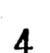4
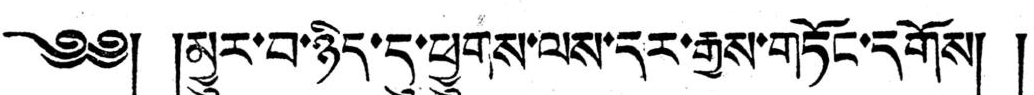༄༅། །མྱུར་བ་ཉིད་དུ་ཕྱུགས་ལས་དར་རྒྱས་གཏོང་དགོས། །
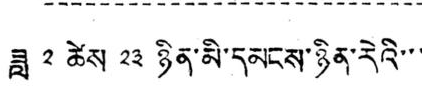ཟླ ༢ ཚེས ༢༣ ཉིན་མི་དམངས་ཉིན་རེའི་་་
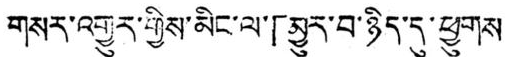གསར་འགྱུར་གྱིས་མིང་ལ་「མྱུར་བ་ཉིད་དུ་ཕྱུགས
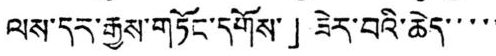ལས་དར་རྒྱས་གཏོང་དགོས་」ཟེར་བའི་ཆེད་་་་་
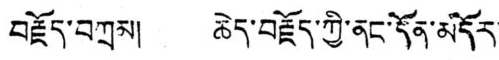བརྗོད་བཀྲམ། ཆེད་བརྗོད་ཀྱི་ནང་དོན་མདོར་
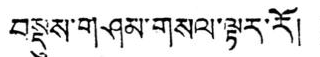བསྡུས་གཤམ་གསལ་ལྟར་རོ། །
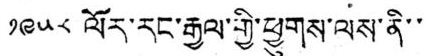༡༩༥༨ ལོར་རང་རྒྱལ་གྱི་ཕྱུགས་ལས་ནི་་
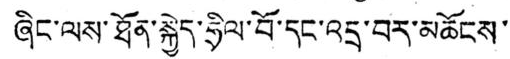ཞིང་ལས་ཐོན་སྐྱེད་ཧྲིལ་བོ་དང་འདྲ་བར་མཆོངས་
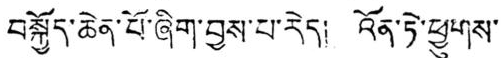བསྐྱོད་ཆེན་པོ་ཞིག་བྱས་པ་རེད། འོན་ཏེ་ཕྱུགས་
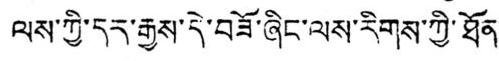ལས་ཀྱི་དར་རྒྱས་དེ་བཟོ་ཞིང་ལས་རིགས་ཀྱི་ཐོན་
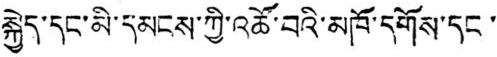སྐྱེད་དང་མི་དམངས་ཀྱི་འཚོ་བའི་མཁོ་དགོས་དང་
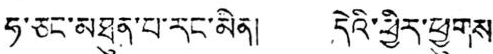ཧ་ཅང་མཐུན་པ་རང་མིན། དེའི་ཕྱིར་ཕྱུགས་
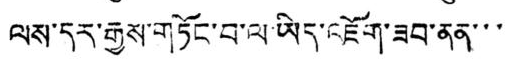ལས་དར་རྒྱས་གཏོང་བ་ལ་ཡིད་འཇོག་ཟབ་ནན་་་
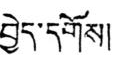བྱེད་དགོས།
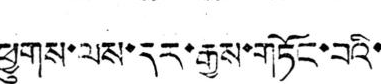ཕྱུགས་ལས་དར་རྒྱས་གཏོང་བའི་
